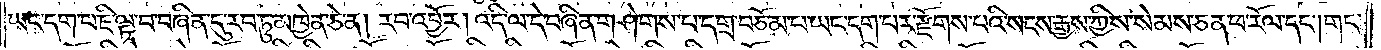ཡང་དག་པ་ཇི་ལྟ་བ་བཞིན་དུ་རབ་ཏུ་མཁྱེན་ཅེ་ན། རབ་འབྱོར། འདི་ལ་དེ་བཞིན་གཤེགས་པ་དགྲ་བཅོམ་པ་ཡང་དག་པར་རྫོགས་པའི་སངས་རྒྱས་ཀྱིས་སེམས་ཅན་ཕ་རོལ་དང༌། གང་
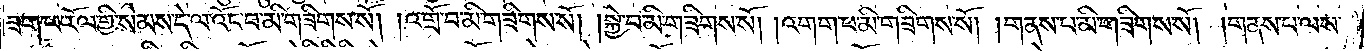ཟག་ཕ་རོལ་གྱི་སེམས་དེ་ལ་འོང་བ་མི་གཟིགས་སོ། །འགྲོ་བ་མི་གཟིགས་སོ། །སྐྱེ་བ་མི་གཟིགས་སོ། །འགག་པ་མི་གཟིགས་སོ། །གནས་པ་མི་གཟིགས་སོ། །གནས་པ་ལས་
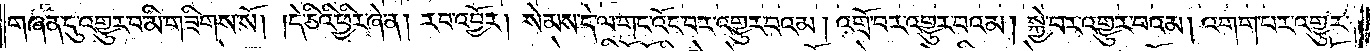གཞན་དུ་འགྱུར་བ་མི་གཟིགས་སོ། །དེ་ཅིའི་ཕྱིར་ཞེ་ན། རབ་འབྱོར། སེམས་དེ་ལ་གང་འོང་བར་འགྱུར་བའམ། འགྲོ་བར་འགྱུར་བའམ། སྐྱེ་བར་འགྱུར་བའམ། འགག་པར་འགྱུར་
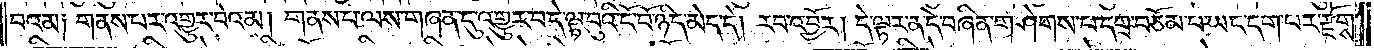བའམ༑ གནས་པར་འགྱུར་བའམ། གནས་པ་ལས་གཞན་དུ་འགྱུར་བ་དེ་ལྟ་བུའི་ངོ་བོ་ཉིད་མེད་དེ། རབ་འབྱོར། དེ་ལྟར་ན་དེ་བཞིན་གཤེགས་པ་དགྲ་བཅོམ་པ་ཡང་དག་པར་རྫོགས་
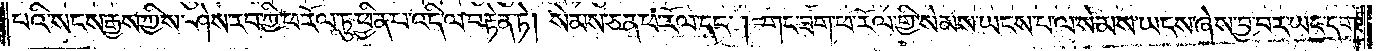པའི་སངས་རྒྱས་ཀྱིས་ཤེས་རབ་ཀྱི་ཕ་རོལ་ཏུ་ཕྱིན་པ་འདི་ལ་བརྟེན་ཏེ། སེམས་ཅན་ཕ་རོལ་དང༌། གང་ཟག་ཕ་རོལ་གྱི་སེམས་ཡངས་པ་ལ་སེམས་ཡངས་ཞེས་བྱ་བར་ཡང་དག་
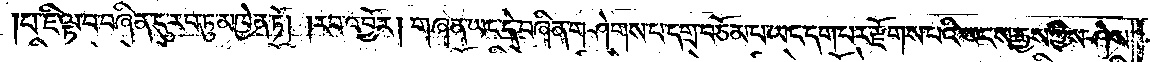པ་ཇི་ལྟ་བ་བཞིན་དུ་རབ་ཏུ་མཁྱེན་ཏོ། །རབ་འབྱོར། གཞན་ཡང་དེ་བཞིན་གཤེགས་པ་དགྲ་བཅོམ་པ་ཡང་དག་པར་རྫོགས་པའི་སངས་རྒྱས་ཀྱིས་ཤེས་
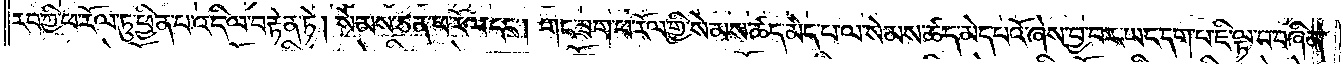རབ་ཀྱི་ཕ་རོལ་ཏུ་ཕྱིན་པ་འདི་ལ་བརྟེན་ཏེ། སེམས་ཅན་ཕ་རོལ་དང༌། གང་ཟག་ཕ་རོལ་གྱི་སེམས་ཚད་མེད་པ་ལ་སེམས་ཚད་མེད་པའོ་ཞེས་བྱ་བར་ཡང་དག་པ་ཇི་ལྟ་བ་བཞིན་
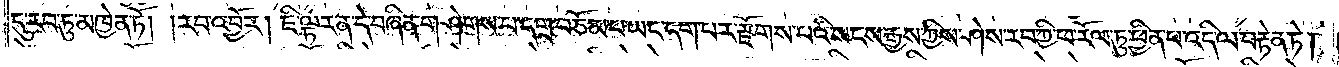དུ་རབ་ཏུ་མཁྱེན་ཏོ། །རབ་འབྱོར། ཇི་ལྟར་ན་དེ་བཞིན་གཤེགས་པ་དགྲ་བཅོམ་པ་ཡང་དག་པར་རྫོགས་པའི་སངས་རྒྱས་ཀྱིས་ཤེས་རབ་ཀྱི་ཕ་རོལ་ཏུ་ཕྱིན་པ་འདི་ལ་བརྟེན་ཏེ།
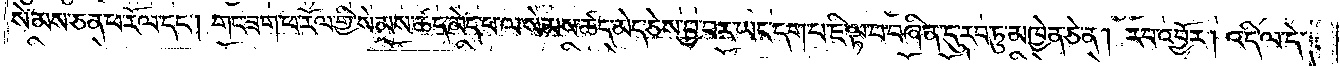སེམས་ཅན་ཕ་རོལ་དང༌། གང་ཟག་ཕ་རོལ་གྱི་སེམས་ཚད་མེད་པ་ལ་སེམས་ཚད་མེད་ཅེས་བྱ་བར་ཡང་དག་པ་ཇི་ལྟ་བ་བཞིན་དུ་རབ་ཏུ་མཁྱེན་ཅེ་ན། རབ་འབྱོར། འདི་ལ་དེ་
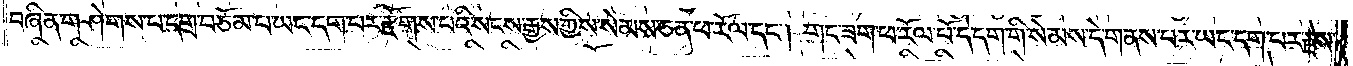བཞིན་གཤེགས་པ་དགྲ་བཅོམ་པ་ཡང་དག་པར་རྫོགས་པའི་སངས་རྒྱས་ཀྱིས་སེམས་ཅན་ཕ་རོལ་དང༌། གང་ཟག་ཕ་རོལ་པོ་དེ་དག་གི་སེམས་དེ་གནས་པར་ཡང་དག་པར་རྗེས་
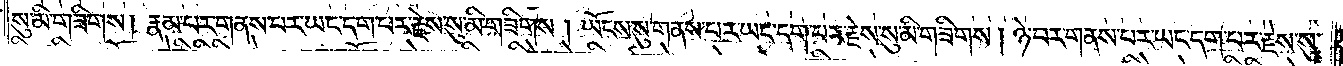སུ་མི་གཟིགས། རྣམ་པར་གནས་པར་ཡང་དག་པར་རྗེས་སུ་མི་གཟིགས། ཡོངས་སུ་གནས་པར་ཡང་དག་པར་རྗེས་སུ་མི་གཟིགས། ཉེ་བར་གནས་པར་ཡང་དག་པར་རྗེས་སུ་
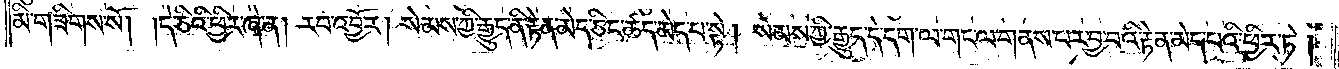མི་གཟིགས་སོ། །དེ་ཅིའི་ཕྱིར་ཞེ་ན། རབ་འབྱོར། སེམས་ཀྱི་རྒྱུད་ནི་རྟེན་མེད་ཅིང་ཚད་མེད་པ་སྟེ། སེམས་ཀྱི་རྒྱུད་དེ་དག་ལ་གང་ལ་གནས་པར་བྱ་བའི་རྟེན་མེད་པའི་ཕྱིར་ཏེ།
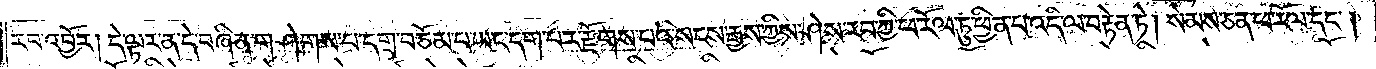རབ་འབྱོར། དེ་ལྟར་ན་དེ་བཞིན་གཤེགས་པ་དགྲ་བཅོམ་པ་ཡང་དག་པར་རྫོགས་པའི་སངས་རྒྱས་ཀྱིས་ཤེས་རབ་ཀྱི་ཕ་རོལ་ཏུ་ཕྱིན་པ་འདི་ལ་བརྟེན་ཏེ། སེམས་ཅན་ཕ་རོལ་དང༌།
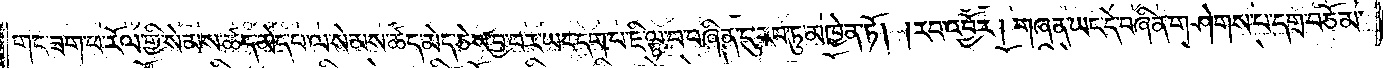གང་ཟག་ཕ་རོལ་གྱི་སེམས་ཚད་མེད་པ་ལ་སེམས་ཚད་མེད་ཅེས་བྱ་བར་ཡང་དག་པ་ཇི་ལྟ་བ་བཞིན་དུ་རབ་ཏུ་མཁྱེན་ཏོ། །རབ་འབྱོར། གཞན་ཡང་དེ་བཞིན་གཤེགས་པ་དགྲ་བཅོམ་
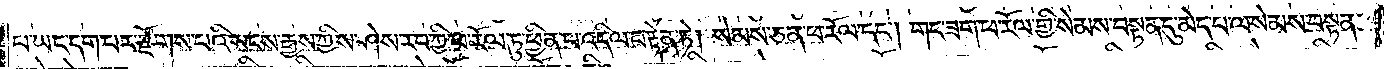པ་ཡང་དག་པར་རྫོགས་པའི་སངས་རྒྱས་ཀྱིས་ཤེས་རབ་ཀྱི་ཕ་རོལ་ཏུ་ཕྱིན་པ་འདི་ལ་བརྟེན་ཏེ། སེམས་ཅན་ཕ་རོལ་དང༌། གང་ཟག་ཕ་རོལ་གྱི་སེམས་བསྟན་དུ་མེད་པ་ལ་སེམས་བསྟན་
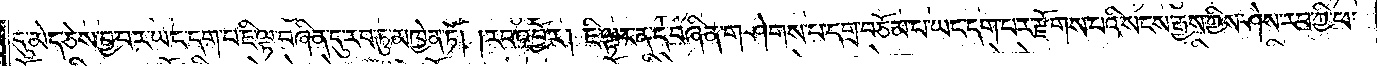དུ་མེད་ཅེས་བྱ་བར་ཡང་དག་པ་ཇི་ལྟ་བ་བཞིན་དུ་རབ་ཏུ་མཁྱེན་ཏོ། །རབ་འབྱོར། ཇི་ལྟར་ན་དེ་བཞིན་གཤེགས་པ་དགྲ་བཅོམ་པ་ཡང་དག་པར་རྫོགས་པའི་སངས་རྒྱས་ཀྱིས་ཤེས་རབ་ཀྱི་ཕ་
